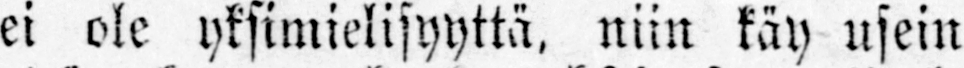ei ole yksimielisyyttä, niin käy usein
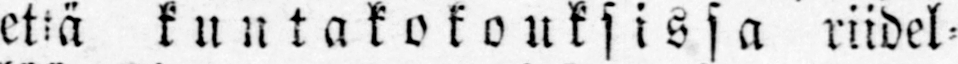että kuntakokouksisa riidel-
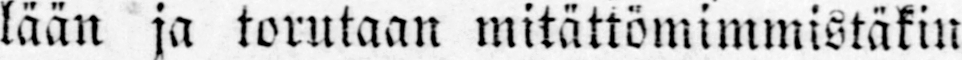lään ja torutaan mitättomimmistäkin
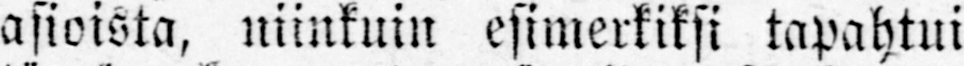asioista, niinkuin esimerkiksi tapahtui
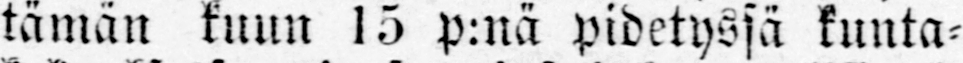tämän kuun 15 p:nä pidetyssä kunta-
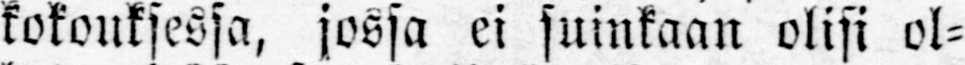kokouksessa, jossa ei suinkaan olisi ol-
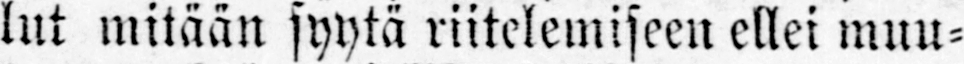lut mitään syytä riitelemiseen ellei muu-
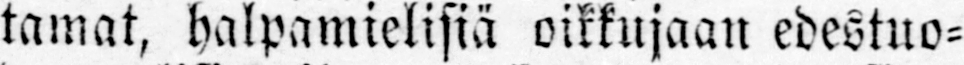tamat, halpamielisiä oikkujaan edestuo-
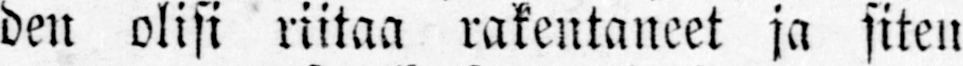den olisi riitaa rakentaneet ja siten
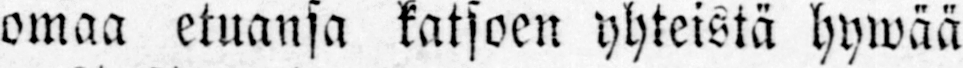omaa etuansa katsoen yhteistä hywää
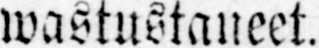wastustaneet.
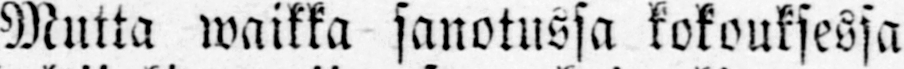Mutta waikka sanotussa kokouksessa
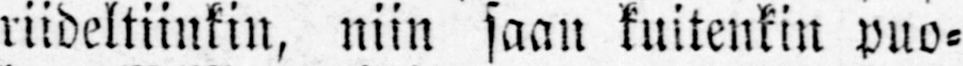riideltiinkin, niin saan kuitenkin puo-
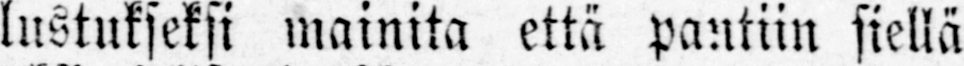lustukseksi mainita että pantiin siellä
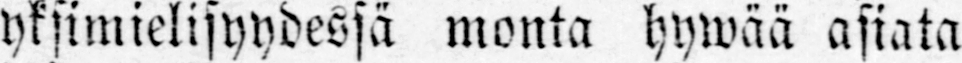yksimielisyydessä monta hywää asiata
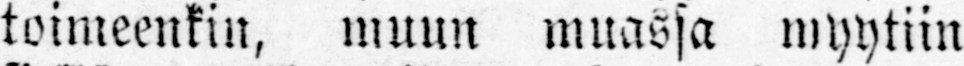toimeenkin, muun muassa myytiin
